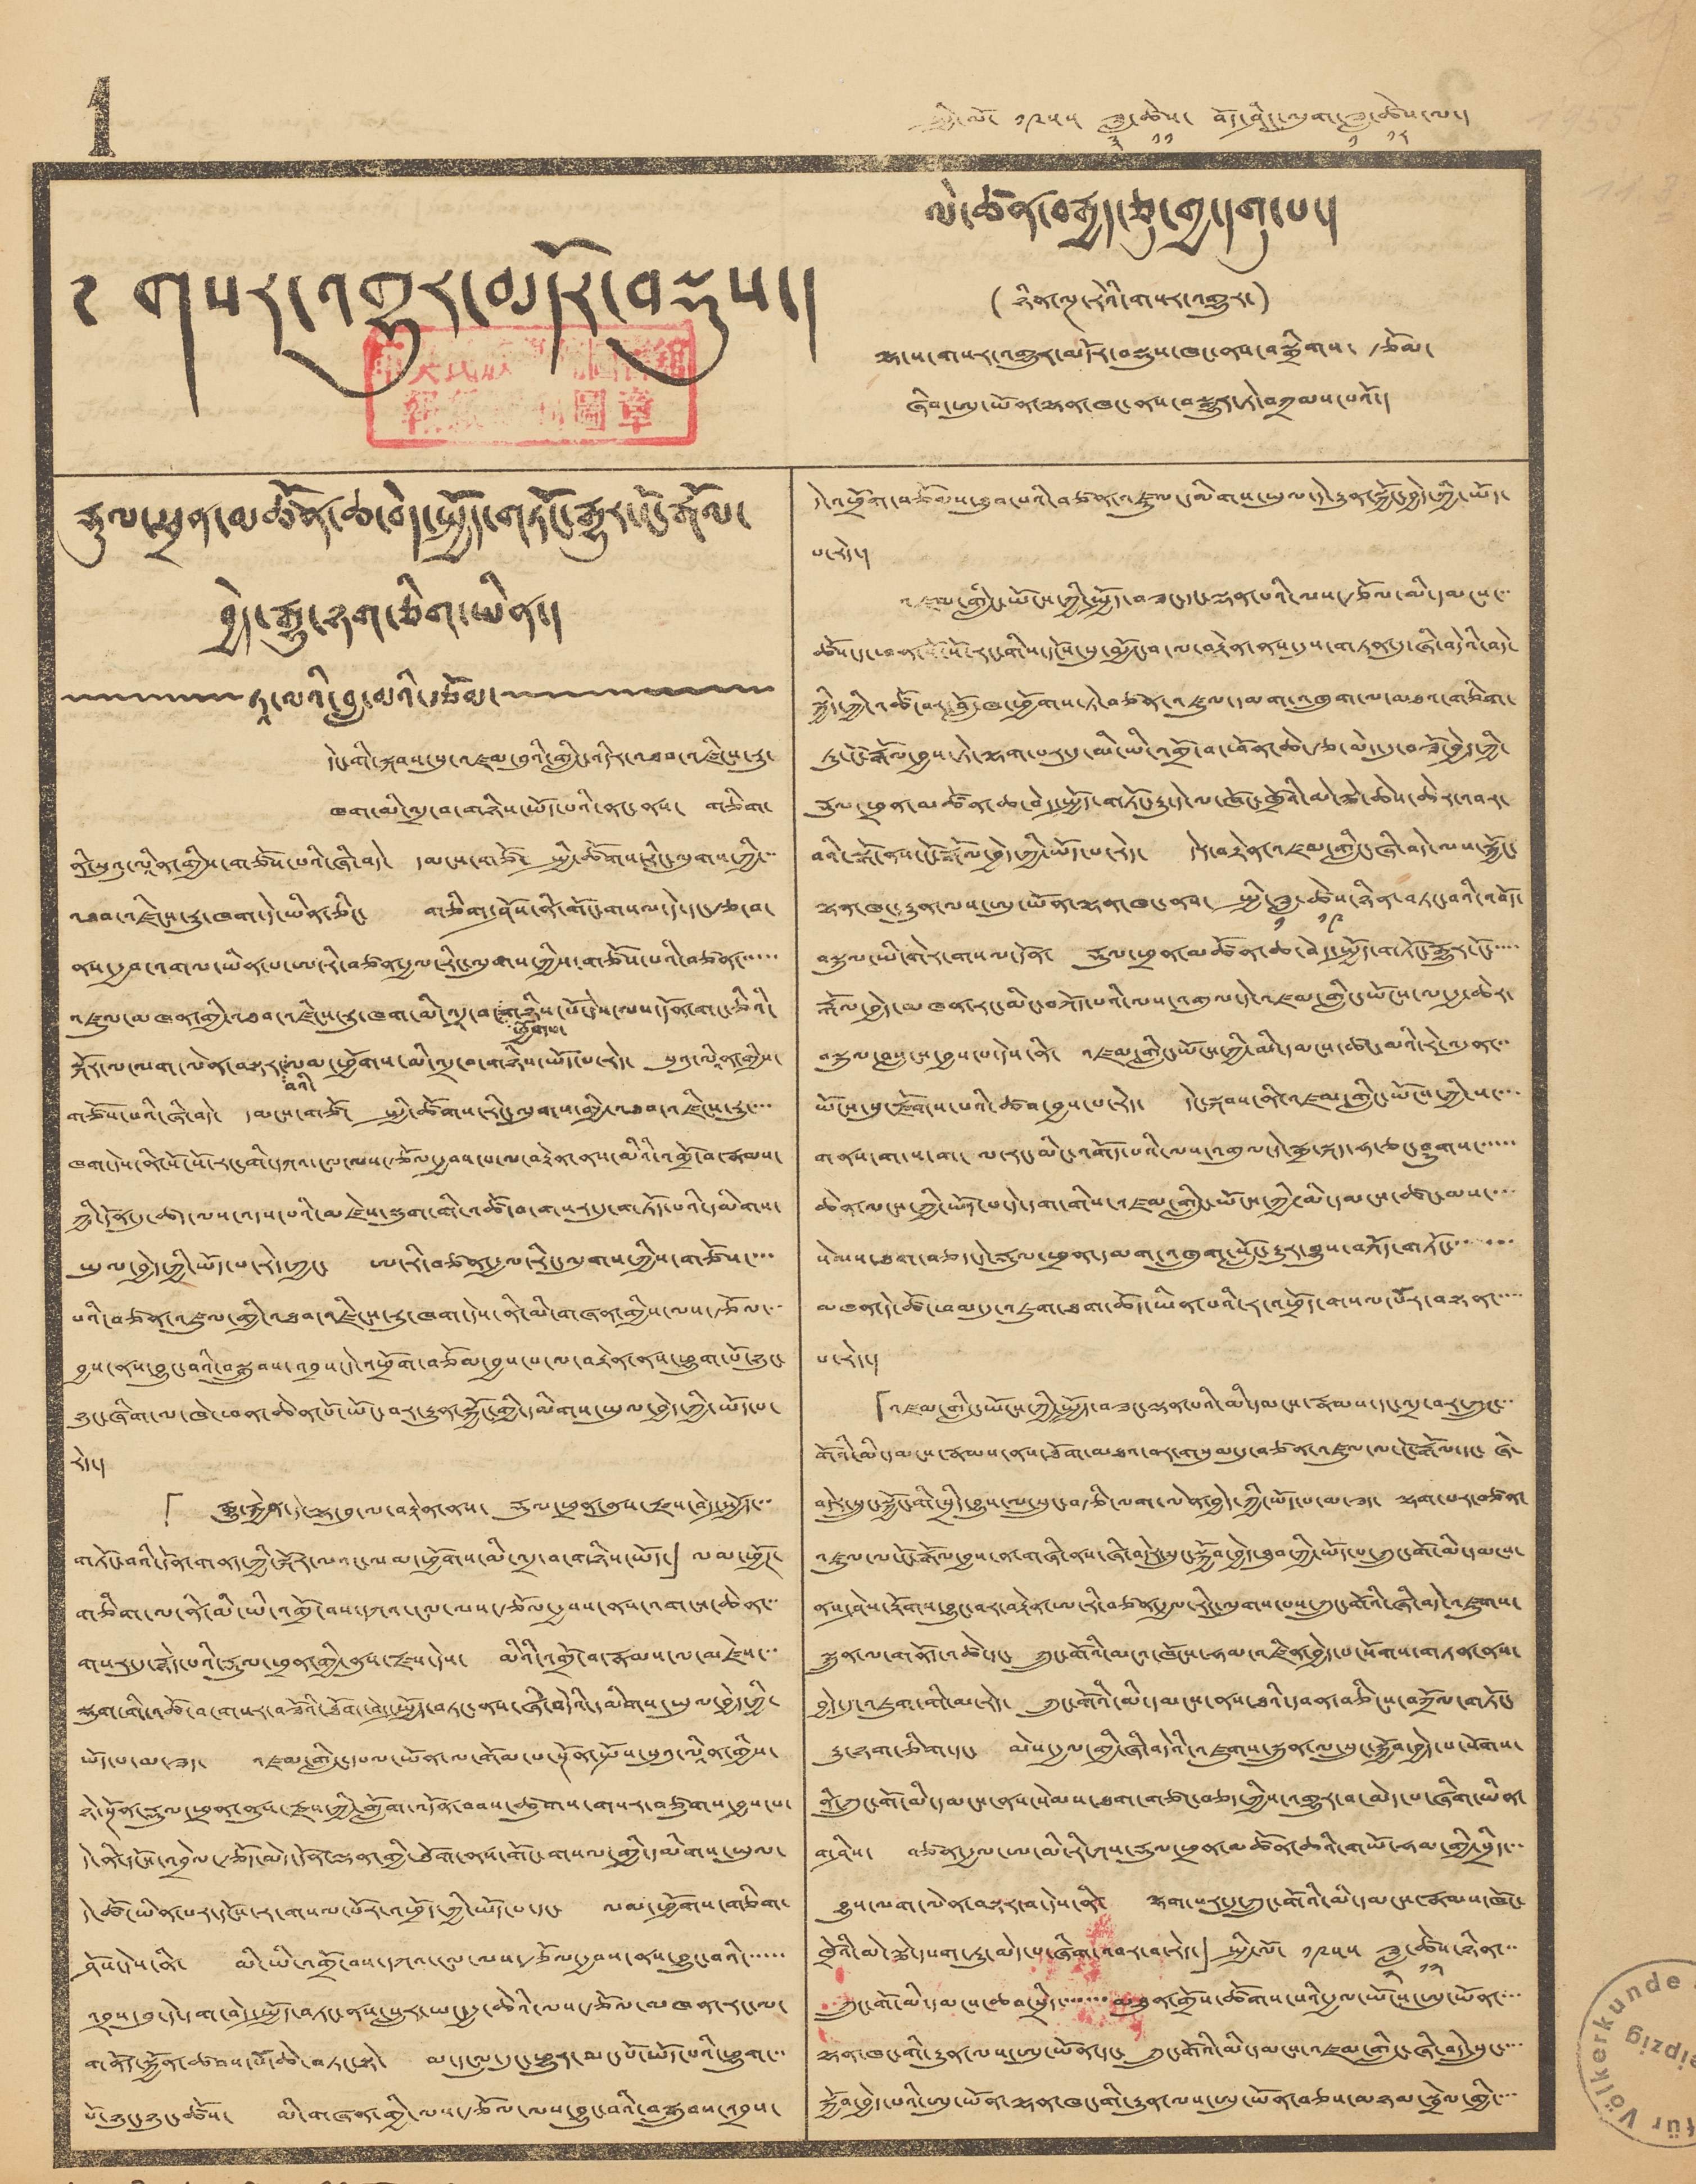1 སྤྱི་ལོ་ ༡༩༥༥ ཟླ་
༣
ཚེས་
༡༡
བོད་ཤིང་ལུག་ཟླ་
༡
ཚེས་
༡༨
ལ་།
གསར་འགྱུར་མདོར་བསྡུས་།
ལེ་ཚན་བརྒྱད་ཅུ་གྱ་དགུ་པ་།
(ཉིན་ལྔ་རེའི་གསར་འགྱུར་)
ལྷ་ས་གསར་འགྱུར་མདོར་བསྡུས་ཁང་ནས་བསྒྲིགས་ རྩོམ་
ཞིབ་ཨུ་ཡོན་ལྷན་ཁང་ནས་བསྒྱུར་ཏེ་བཀྲམས་པའོ་།
རྡུལ་ཕྲན་མཚོན་ཆ་བེད་སྤྱོད་གཏོང་རྒྱུར་ངོ་རྒོལ་
བྱེད་རྒྱུ་ཉག་ཅིག་ཡིན་༧
ཏཱ་ལའི་བླ་མའི་རྩོམ་
དེང་གི་སྐབས་སུ་འཛམ་བུའི་གླིང་འདིར་འཐབ་འཛིངས་རུ་
ཁག་མི་འདྲ་བ་གཉིས་ཡོད་པའི་ནང་ནས་ གཅིག་
ནི་སུའུ་ལཱིན་གྱིས་གཙོས་པའི་ཞི་བདེ་ དམངས་གཙོ་ སྤྱི་ཚོགས་རིང་ལུགས་ཀྱི་་་
འཐབ་འཛིངས་རུ་ཁག་དེ་ཡིན་ཅིང་ གཅིག་ཤོས་ནི་གོང་གསལ་དེ་དང་རྩ་བ་
ནས་རྒྱབ་འགལ་ཡིན་པ་ཨ་རི་བཙན་རྒྱལ་རིང་ལུགས་ཀྱིས་གཙོས་པའི་བཙན་་་་་་
འཛུལ་མཁན་གྱི་འཐབ་འཛིངས་རུ་ཁག་མི་འདྲ་བ་
ཕྱོགས་
གཉིས་པོ་དེས་ལས་དོན་གང་ཅིའི་
སྐོར་ལ་ལག་ལེན་བསྟར་
བའི་
ལམ་ཕྱོགས་མི་འདྲ་བ་གཉིས་ཡོད་པ་རེད་ སུའུ་ལཱིན་གྱིས་
གཙོས་པའི་ཞི་བདེ་ དམངས་གཙོ་ སྤྱི་ཚོགས་རིང་ལུགས་གྱི་འཐབ་འཛིངས་རུ་་་་
ཁག་དེས་ནི་སོ་སོ་རང་གི་དཀའ་ངལ་ལས་རྩོལ་རྒྱབས་པ་ལ་བརྟེན་ནས་མིའི་འགྲོ་བ་རྣམས་
ཀྱི་དོན་དུ་ཚད་ལས་འདས་པའི་མཛེས་སྡུག་གི་འཚོ་བ་གསར་དུ་གཏོད་པའི་དམིགས་
ཡུལ་བྱེད་ཀྱི་ཡོད་པ་རེད་ཀྱང་ ཨ་རི་བཙན་རྒྱལ་རིང་ལུགས་ཀྱིས་གཙོས་་་་
པའི་བཙན་འཛུལ་གྱི་འཐབ་འཛིངས་རུ་ཁག་དེས་ནི་མི་གཞན་གྱིས་ལས་རྩོལ་་་
བྱས་ནས་བྱུང་བའི་བསྒྲུབས་འབྲས་དེ་འཕྲོག་བཅོམ་བྱས་པ་ལ་བརྟེན་ནས་ཕྱུག་པོ་ཉུང་
ཉུང་ཞིག་ལ་ཁེ་ཕན་ཆེན་པོ་ཡོང་བར་རྒྱུན་སྐྱོང་གྱི་དམིགས་ཡུལ་བྱེད་ཀྱི་ཡོད་པ་
རེད་།
「རྒྱུ་རྐྱེན་དེ་ལྟ་བུ་ལ་བརྟེན་ནས་ རྡུལ་ཕྲན་ནུས་རྫས་བེད་སྤྱོད་་་
གཏོང་བའི་དོན་གནད་ཀྱི་སྐོར་ལའང་ལམ་ཕྱོགས་མི་འདྲ་བ་གཉིས་ཡོད་」 ལམ་ཕྱོཊ་
གཅིག་ལ་ནི་མི་ཡི་འགྲོ་བས་དཀའ་ངལ་ལས་རྩོལ་རྒྱབས་ནས་འགངས་ཆེན་་་
གསར་དུ་རྙེད་པའི་རྡུལ་ཕྲན་གྱི་ནུས་རྫས་དེས་ མིའི་འགྲོ་བ་རྣམས་ལ་མཛེས་་་
སྡུག་གི་འཚོ་བ་གསར་བཟོའི་ཐོག་བེད་སྤྱོད་བཏང་ནས་ཞི་བདེའི་དམིགས་ཡུལ་བྱེད་ཀྱི་
ཡོད་པ་མ་ཟད་ འཛམ་གླིང་དཔལ་ཡོན་ལ་གོམ་པ་སྔོན་སྤོས་སུའུ་ལཱིན་གྱིས་
ཉེ་སྔོན་རྡུལ་ཕྲན་ནུས་རྫས་ཀྱི་གློག་འདོན་བབས་ཚུགས་གསར་བཙུགས་བྱས་པ་
དེ་ནི་དངོས་འབྲེལ་རྩོད་མེད་དོན་ལྡན་གྱི་ཐོག་ནས་གོང་གསལ་གྱི་དམིགས་ཡུལ་
དེ་ཚོ་ཡིན་པར་དངོས་ར་གསལ་པོར་འཕྲོད་ཀྱི་ཡོད་པ་དང་ ལམ་ཕྱོགས་གཅིག་
ཤོས་དེས་ནི་ མི་ཡི་འགྲོ་བས་དཀའ་ངལ་ལས་རྩོལ་རྒྱབས་ནས་བྱུང་བའི་་་་་་
འབྲས་བུ་དེ་དག་བེད་སྤྱོད་བཏང་ནས་སླར་ཡང་རྒྱ་ཆེའི་ལས་རྩོལ་མཁན་རང་ལ་
གནོད་སྐྱོན་ཚབས་པོ་ཆེ་བཏང་སྟེ་ མ་དངུལ་དུང་ཕྱུར་མང་པོ་ཡོད་པའི་ཕྱུག་་་
པོ་ཉུང་ཉུང་ཚོས་ མི་གཞན་གྱི་ལས་རྩོལ་ལས་བྱུང་བའི་བསྒྲུབས་འབྲས་
དེ་འཕྲོག་བཅོམས་ཐུབ་པའི་བཙན་འཛུལ་དམིགས་ཡུལ་དེ་རྒྱུན་སྐྱོང་བྱེད་ཀྱི་ཡོད་
པ་རེད་།
འཛམ་གླིང་ཡོངས་ཀྱི་སྤྱོད་བཟང་དང་ལྡན་པའི་ལས་རྩོལ་མི་དམངས་་་
ཚོས་ད་ཕན་སོ་སོ་རང་གིས་དངོས་སུ་མྱོང་བ་ལ་བརྟེན་ནས་དུས་གཏན་དུ་ཞི་བདེའི་བདེ་
སྐྱིད་ཀྱི་འཚོ་བར་བློ་ཁ་ཕྱོགས་ཏེ་བཙན་འཛུལ་དམག་འཁྲུག་ལ་མཐའ་གཅིག་
ཏུ་ངོ་རྒོལ་བྱས་ཏེ་ལྷག་པར་དུ་མི་ཡི་འགྲོ་བ་ཕོན་ཆེ་རྩ་མེད་དུ་བཟོ་བྱེད་ཀྱི་
རྡུལ་ཕྲན་མཚོན་ཆ་བེད་སྤྱོད་གཏོང་རྒྱུ་དེ་ལ་ཁོང་ཁྲོའི་མེ་ལྕེ་ཆེས་ཆེར་འབར་
བའི་སྒོ་ནས་ངོ་རྒོལ་བྱེད་ཀྱི་ཡོད་པ་རེད་ དེར་བརྟེན་འཛམ་གླིང་ཞི་བདེ་ལས་སྐྱོང་
ལྷན་ཁང་རྒྱུན་ལས་ཨུ་ཡོན་ལྷན་ཁང་ནས་ སྤྱི་ཟླ་
༡
ཚེས་
༡༩
ཉིན་བཏང་བའི་འབོད་
བལྐུལ་ཡི་གེར་གསལ་དོན་ རྡུལ་ཕྲན་མཚོན་ཆ་བེད་སྤྱོད་གཏོང་རྒྱུར་ངོ་་་་་
རྒོལ་བྱེད་མཁན་རང་མིང་བཀོད་པའི་ལས་འགུལ་དེ་འཛམ་གླིང་ཡོངས་ལ་རྒྱ་ཆེར་
བསྐུལ་བསླངས་བྱས་པ་དེས་ནི་ འཛམ་གླིང་ཡོངས་ཀྱི་མི་དམངས་ཚང་མའི་རེ་འདུན་་་
ཡོངས་སུ་རྫོགས་པའི་ཚབ་བྱས་པ་རེད་ དེངས་སྐབས་ནི་འཛམ་གླིང་ཡོངས་ཀྱི་ས་་་་
གནས་ག་ས་ག་ལ་རང་མིང་འགོད་པའི་ལས་འགུལ་དེ་སྒྲ་སྐད་ཧ་ཅང་ཤུགས་་་་་་
ཆེན་ལངས་ཀྱི་ཡོད་པ་དེ་དག་གིས་འཛམ་གླིང་ཡོངས་ཀྱི་མི་དམངས་ཚང་མས་་་་
སེམས་ཐག་བཅད་དེ་རྡུལ་ཕྲན་དམག་འཁྲུག་སློང་རྒྱུར་བྱུས་བཀོད་གཏོང་་་་་་་
མཁན་དེ་ཚོ་ཕམ་དུ་འཇུག་ཐག་ཆོད་ཡིན་པའི་ར་འཕྲོད་གསལ་པོར་བསྟན་་་་་
པ་རེད་།
「འཛམ་གླིང་ཡོངས་ཀྱི་སྤྱོད་བཟང་ལྡན་པའི་མི་དམངས་རྣམས་དང་འདྲ་བར་ཀྲུང་་་
གོའི་མི་དམངས་རྣམས་ནས་ཐོག་མཐའ་བར་གསུམ་དུ་བཙན་འཛུལ་ལ་ངོ་རྒོལ་དང་ ཞི་
བདེར་སྲུང་སྐྱོང་གི་སྲིད་བྱུས་ལ་སྲུང་བརྩི་ལག་ལེན་བྱེད་ཀྱི་ཡོད་པ་མ་ཟད་ ལྷག་པར་བཙན་
འཛུལ་ལ་ངོ་རྒོལ་བྱས་ན་གཞི་ནས་ཞི་བདེར་སྲུང་སྐྱོབ་བྱེད་ཐུབ་ཀྱི་ཡོད་པ་ཀྲུང་གོ་མི་དམངས་
ནས་ཤེས་རྟོགས་བྱུང་བར་བརྟེན་ཨ་རི་བཙན་རྒྱལ་རིང་ལུགས་པས་ཀྲུང་གོའི་ཞི་བདེ་འཛུགས་
སྐྲུན་ལ་གནོད་འཚེ་དང་ ཀྲུང་གོའི་མངའ་ཁོངས་ཧམ་འཛིན་བྱེད་པ་སོགས་གཏན་ནས་
བྱེད་དུ་འཇུག་གི་མ་རེད་ ཀྲུང་གོའི་མི་དམངས་ནས་ཐའི་དབན་བཅིངས་བཀྲོལ་གཏོང་
རྒྱུ་ཉག་ཅིག་དང་ མེས་རྒྱལ་གྱི་ཞི་བདེའི་འཛུགས་སྐྲུན་ལ་སྲུང་སྐྱོབ་བྱེད་པ་སོགས་
ནི་ཀྲུང་གོ་མི་དམངས་ནས་སེམས་ཐག་གཙང་བཅད་ཀྱིས་འགྱུར་བ་མེད་པ་ཞིག་ཡིན་
གཤིས་ བཙན་རྒྱལ་ཨ་མི་རི་ཀས་རྡུལ་ཕྲན་མཚོན་ཆའི་གཡོ་ཧམ་གྱི་སྲིད་་་
བྱུས་ལག་ལེན་བསྟར་བ་དེས་ནི་ ལྷག་པར་དུ་ཀྲུང་གོའི་མི་དམངས་རྣམས་ཁོང་
ཁྲོའི་མེ་ལྕེ་དཔག་ཏུ་མེད་པ་ཞིག་འབར་བ་རེད་」 སྤྱི་ལོ་ ༡༩༥༥ ཟླ་
༢
ཚེས་
༡༢
ཉིན་་་
ཀྲུང་གོ་མི་དམངས་ཆབ་སྲིད་་་་་་་མཐུན་གྲོས་ཚོགས་སའི་རྒྱལ་ཡོངས་ཨུ་ཡོན་་་་
ལྷན་ཁང་གི་རྒྱུན་ལས་ཨུ་ཡོན་དང་ ཀྲུང་གོའི་མི་དམངས་འཛམ་གླིང་ཞི་བདེ་སྲུང་་་་
སྐྱོབ་བྱེད་པའི་ཨུ་ཡོན་ལྷན་ཁང་གི་རྒྱུན་ལས་ཨུ་ཡོན་བཅས་མཉམ་སྦྲེལ་གྱི་་་་
